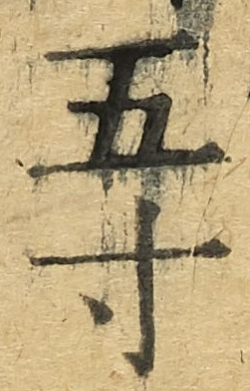五寸
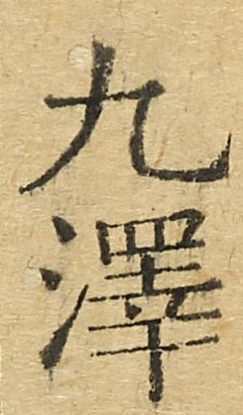九澤
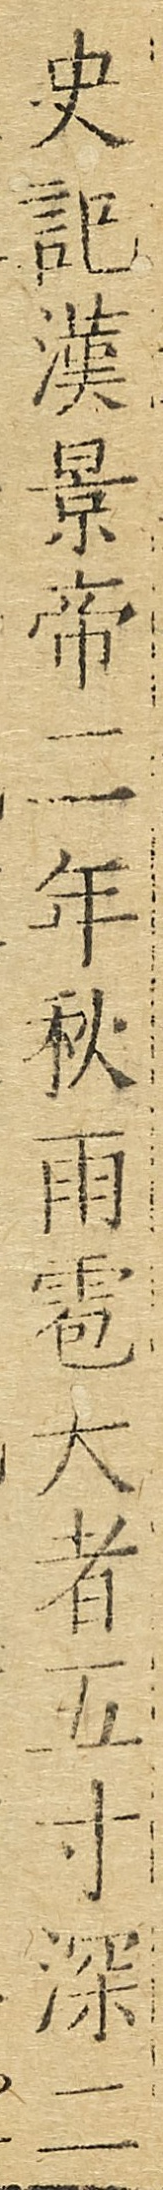史記漢景帝二年秋雨雹大者五寸深二
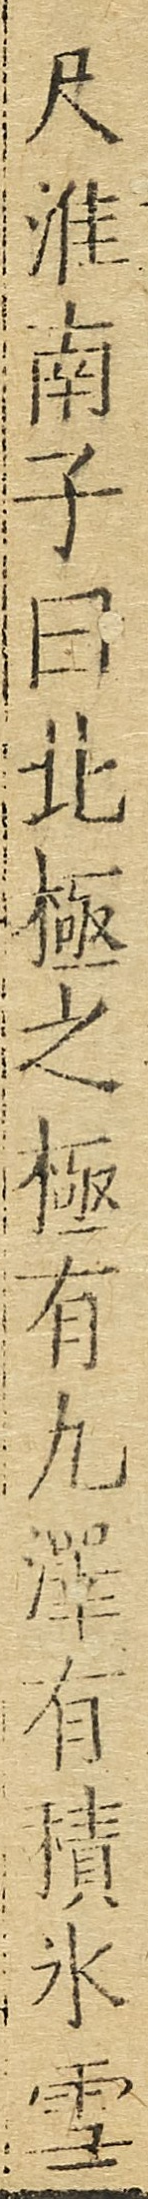尺淮南子曰北極之極有九澤有積冰雪
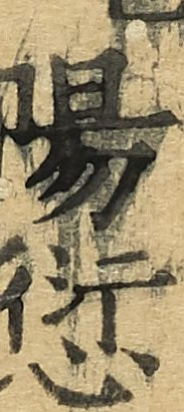陽愆
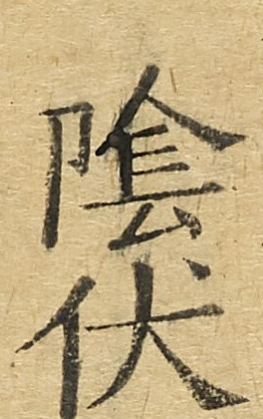陰伏
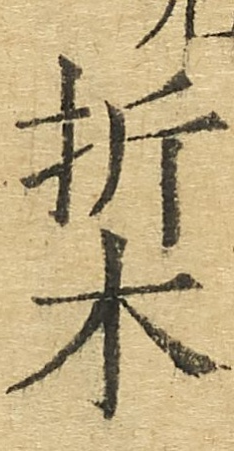折木
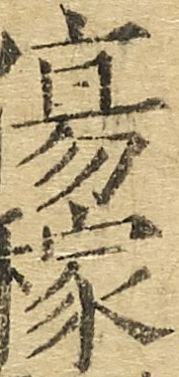傷稼
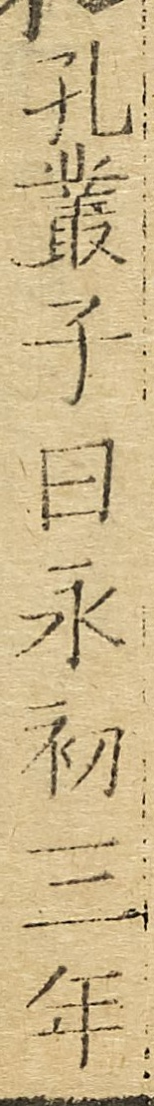孔叢子曰永初三年
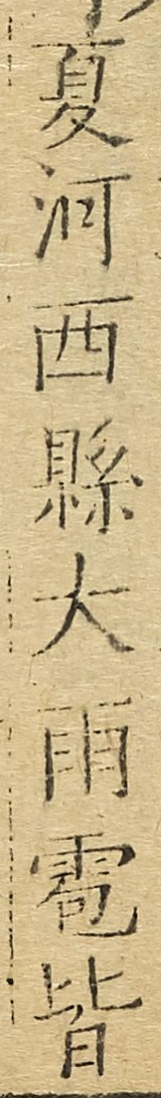夏河西縣大雨雹皆
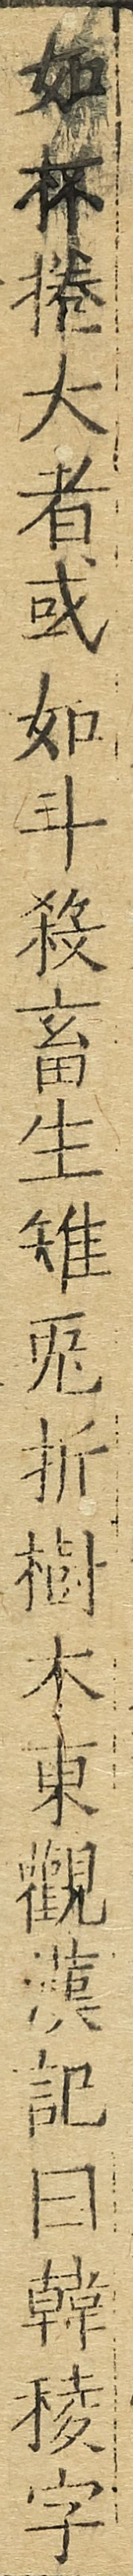如杯棬大者或如斗殺畜生雉兔折樹木東觀漢記曰韓稜字
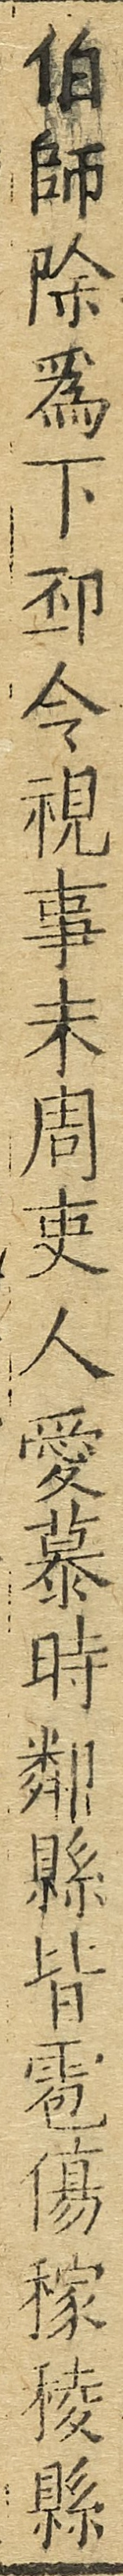伯師除爲下邳令視事未周吏人愛慕時鄰縣皆雹傷稼稜縣
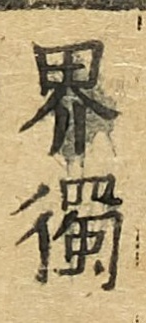界獨
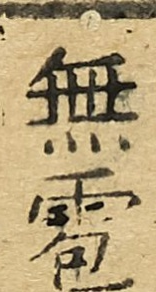無雹
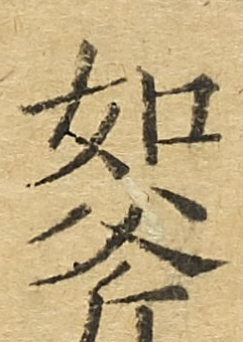如斧
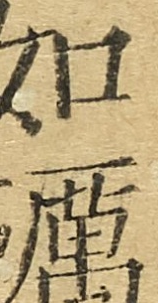如礪
